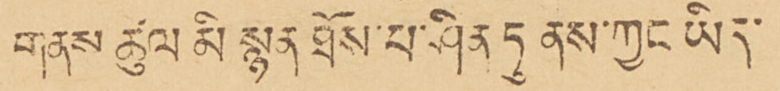གནས ཚུལ མི སྙན ཐོས་པ་ཤིན ཏུ ནས་ཀྱང ཡིད་
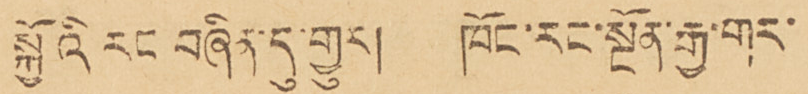སྐྱོའི རང བཞིན་དུ་གྱུར། ཁོང་རང་སྔོན་རྒྱ་གར་
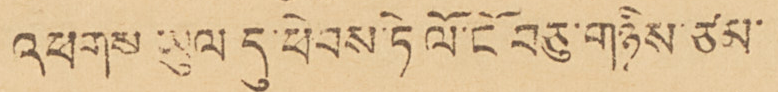འཕགས ཡུལ དུ་ཕེབས་ཏེ ལོ་ངོ་བཅུ་གཉིས་ཙམ་
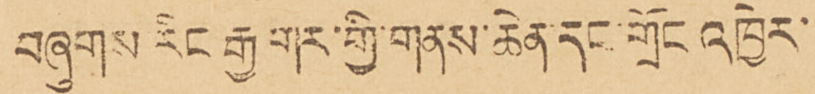བཞུགས རིང རྒྱ གར་གྱི་གནས་ཆེན་དང་གྲོང འཁྱེར་
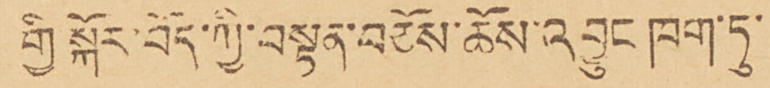གྱི སྐོར་བོད་ཀྱི་བསྟན་བཅོས་ཆོས་འབྱུང ཁག་ཏུ་
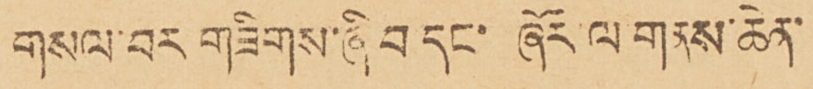གསལ་བར གཟིགས་ཞི བ དང་ཞོར་ལ གནས་ཆེན་
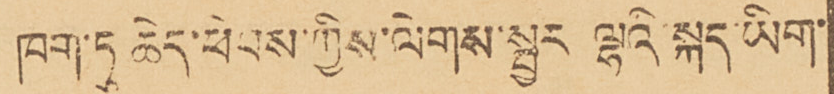ཁག་ཏུ ཆེད་ཕེབས་ཀྱིས་ལེགས་སྦྱར ལྷའི་སྐད་ཡིག་
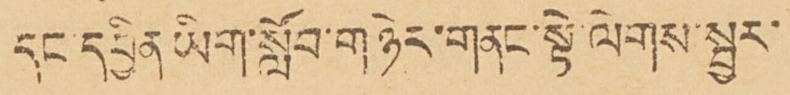དང་དབྱིན ཡིག་སློབ་གཉེར་གནང་སྟེ་ལེགས་སྦྱར་
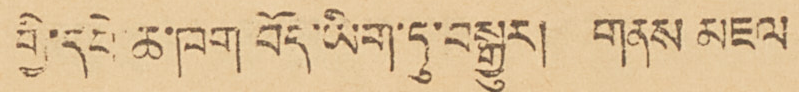གྱི་དཔེ་ཆ་ཁག བོད་ཡིག་ཏུ་བསྒྱུར། གནས མཇལ
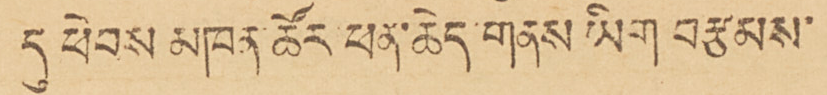དུ ཕེབས མཁན་ཚོར ཕན་ཆེད་གནས ཡིག བརྩམས་
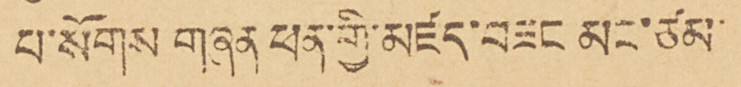པ་སོགས གཞན ཕན་གྱི་མཛད་བཟང མང་ཙམ་
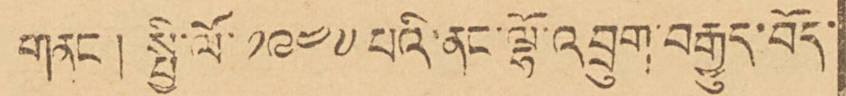གནང ། སྤྱི་ལོ་ ༡༩༤༧ པའི་ནང་ལྷོ་འབྲུག་བརྒྱུད་བོད་
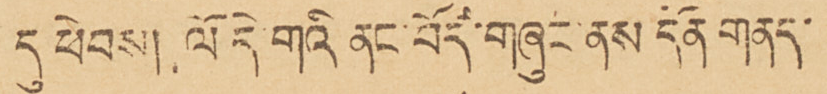དུ་ཕེབས། ལོ དེ གའི ནང་བོད་གཞུང་ནས དོན གནད་
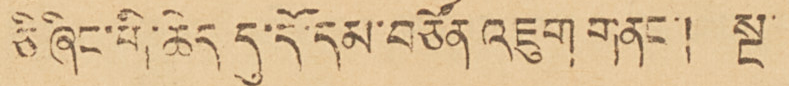ཅི ཞིང་གི་ཆེད དུ་དོ་དམ་བཙོན འཇུག གནང་། སྔ་
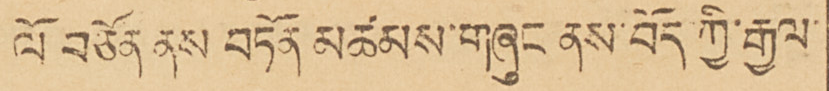ལོ བཙོན ནས བཏོན མཚམས་གཞུང ནས་བོད་ཀྱི་རྒྱལ་
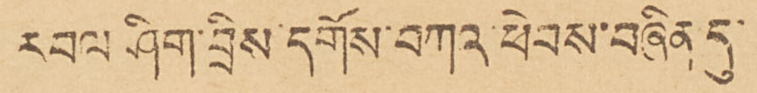རབ ལ ཤིག་བྲིས དགོས་བཀའ་ཕེབས་བཞིན དུ་
